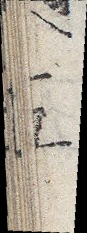五
